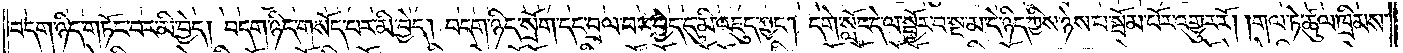བདག་ཉིད་གཏོང་བར་མི་བྱེད། བདག་ཉིད་གསོད་པར་མི་བྱེད། བདག་ཉིད་སྲོག་དང་བྲལ་བར་བྱེད་དུ་མི་འཇུད་ཀྱང༌། དགེ་སློང་དེ་ལ་སྦྱོར་བ་སྔ་མ་དེ་ཉིད་ཀྱིས་ཉེས་པ་སྦོམ་པོར་འགྱུར་རོ། །གལ་ཏེ་ཚུལ་ཁྲིམས་
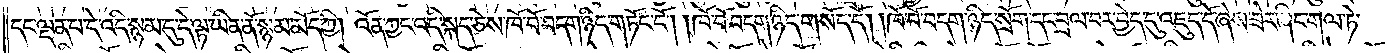དང་ལྡན་པ་དེ་འདི་སྙམ་དུ་དེ་ལྟ་ཡིན་ནོ་སྙམ་མོད་ཀྱི། འོན་ཀྱང་འདི་སྐད་ཅེས་ཁོ་བོ་བདག་ཉིད་གཏོང་ངོ༌། །ཁོ་བོ་བདག་ཉིད་གསོད་དོ། །ཁོ་བོ་བདག་ཉིད་སྲོག་དང་བྲལ་བར་བྱེད་དུ་འཇུད་དོ་ཞེས་ཟེར་ཞིང་གལ་ཏེ་
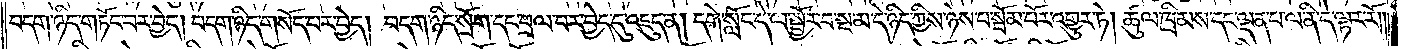བདག་ཉིད་གཏོང་བར་བྱེད། བདག་ཉིད་གསོད་པར་བྱེད། བདག་ཉིད་སྲོག་དང་བྲལ་བར་བྱེད་དུ་འཇུད་ན། དགེ་སློང་དེ་ལ་སྦྱོར་བ་སྔ་མ་དེ་ཉིད་ཀྱིས་ཉེས་པ་སྦོམ་པོར་འགྱུར་ཏེ། ཚུལ་ཁྲིམས་དང་ལྡན་པ་ལ་ནི་དེ་ལྟར་རོ༎
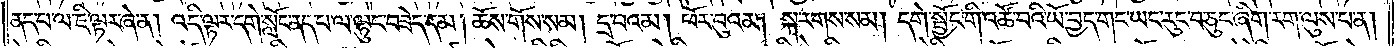ནད་པ་ལ་ཇི་ལྟར་ཞེ་ན། འདི་ལྟར་དགེ་སློང་ནད་པ་ལ་ལྷུང་བཟེད་དམ། ཆོས་གོས་སམ། དྲ་བའམ། ཕོར་བུའམ། སྐ་རགས་སམ། དགེ་སྦྱོང་གི་འཚོ་བའི་ཡོ་བྱད་གང་ཡང་རུང་བ་ཅུང་ཞིག་རག་ལུས་པ་ན།
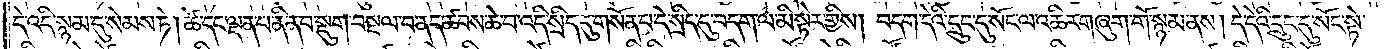དེ་འདི་སྙམ་དུ་སེམས་ཏེ། ཚེ་དང་ལྡན་པ་ནི་ན་བ་སྡུག་བསྔལ་བ་ནད་ཚབས་ཆེ་བ་འདི་སྲིད་དུ་གསོན་པ་དེ་སྲིད་དུ་བདག་ལ་མི་སྟེར་གྱིས། བདག་དེའི་དྲུང་དུ་སོང་ལ་འཆིར་གཞུག་གོ་སྙམ་ནས། དེ་དེའི་དྲུང་དུ་སོང་སྟེ་
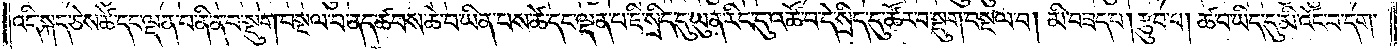འདི་སྐད་ཅེས་ཚེ་དང་ལྡན་པ་ནི་ན་བ་སྡུག་བསྔལ་བ་ནད་ཚབས་ཆེ་བ་ཡིན་པས་ཚེ་དང་ལྡན་པ་ཇི་སྲིད་དུ་ཡུན་རིང་དུ་འཚོ་བ་དེ་སྲིད་དུ་ཚོར་བ་སྡུག་བསྔལ་བ། མི་བཟད་པ། རྩུབ་པ། ཚ་བ་ཡིད་དུ་མི་འོང་བ་དག་
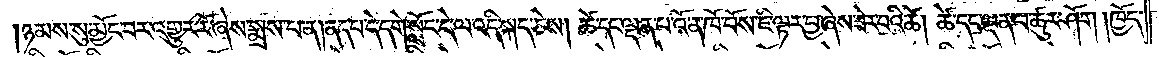།ཉམས་སུ་མྱོང་བར་འགྱུར་རོ་ཞེས་སྨྲས་པ་ན། ནད་པ་དེ་དགེ་སློང་དེ་ལ་འདི་སྐད་ཅེས། ཚེ་དང་ལྡན་པ་འོ་ན་ཁོ་བོས་ཇི་ལྟར་བྱ་ཞེས་ཟེར་བའི་ཚེ། ཚེ་དང་ལྡན་པ་ཚུར་ཤོག །ཁྱོད་
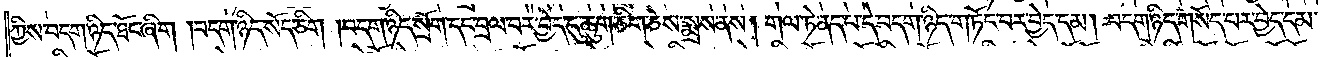ཀྱིས་བདག་ཉིད་ཐོང་ཞིག །བདག་ཉིད་སོད་ཅིག །བདག་ཉིད་སྲོག་དང་བྲལ་བར་བྱེད་དུ་ཆུག་ཅིག་ཅེས་སྨྲས་ནས། གལ་ཏེ་ནད་པ་དེ་བདག་ཉིད་གཏོང་བར་བྱེད་དམ། བདག་ཉིད་གསོད་པར་བྱེད་དམ་
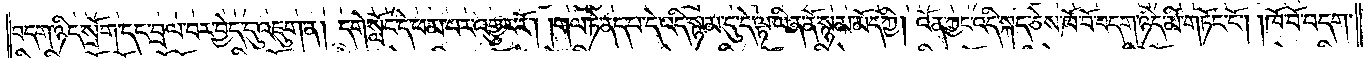བདག་ཉིད་སྲོག་དང་བྲལ་བར་བྱེད་དུ་འཇུག་ན། དགེ་སློང་དེ་ཕམ་པར་འགྱུར་རོ། །གལ་ཏེ་ནད་པ་དེ་འདི་སྙམ་དུ་དེ་ལྟ་ཡིན་ནོ་སྙམ་མོད་ཀྱི། འོན་ཀྱང་འདི་སྐད་ཅེས་ཁོ་བོ་བདག་ཉིད་མི་གཏོང་ངོ༌། །ཁོ་བོ་བདག་
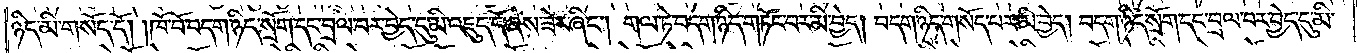ཉིད་མི་གསོད་དོ། །ཁོ་བོ་བདག་ཉིད་སྲོག་དང་བྲལ་བར་བྱེད་དུ་མི་འཇུད་དོ་ཞེས་ཟེར་ཞིང༌། གལ་ཏེ་བདག་ཉིད་གཏོང་བར་མི་བྱེད། བདག་ཉིད་གསོད་པར་མི་བྱེད། བདག་ཉིད་སྲོག་དང་བྲལ་བར་བྱེད་དུ་མི་
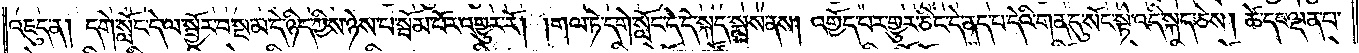འཇུད་ན། དགེ་སློང་དེ་ལ་སྦྱོར་བ་སྔ་མ་དེ་ཉིད་ཀྱིས་ཉེས་པ་སྦོམ་པོར་འགྱུར་རོ། །གལ་ཏེ་དགེ་སློང་དེ་དེ་སྐད་སྨྲས་ནས། འགྱོད་པར་གྱུར་ཅིང་དེ་ནད་པ་དེའི་གན་དུ་སོང་སྟེ་འདི་སྐད་ཅེས། ཚེ་དང་ལྡན་པ་
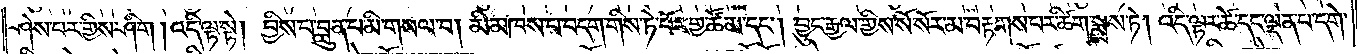ཤེས་པར་གྱིས་ཤིག །འདི་ལྟ་སྟེ། བྱིས་པ་བླུན་པ་མི་གསལ་བ། མི་མཁས་པ་བདག་གིས་ཏེ་བོར་གྱ་ཚོམ་དང༌། བྱུང་རྒྱལ་གྱིས་སོ་སོར་མ་བརྟགས་པར་ཚིག་སྨྲས་ཏེ། འདི་ལྟར་ཚེ་དང་ལྡན་པ་དགེ་
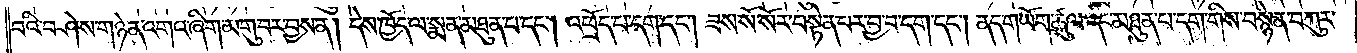བའི་བཤེས་གཉེན་འགའ་ཞིག་མགུ་བར་བྱས་ན། དེས་ཁྱོད་ལ་སྨན་མཐུན་པ་དང༌། འཕྲོད་པ་དག་དང༌། ཟས་སོ་སོར་བསྟེན་པར་བྱ་བ་དག་དང༌། ནད་གཡོག་ཚུལ་དང་མཐུན་པ་དག་གིས་བསྙེན་བཀུར་
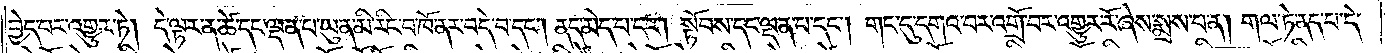བྱེད་པར་འགྱུར་ཏེ། དེ་ལྟར་ན་ཚེ་དང་ལྡན་པ་ཡུན་མི་རིང་བ་ཁོ་ནར་བདེ་བ་དང༌། ནད་མེད་པ་དང༌། སྟོབས་དང་ལྡན་པ་དང༌། གང་དུ་དགའ་བར་འགྲོ་བར་འགྱུར་རོ་ཞེས་སྨྲས་པ་ན། གལ་ཏེ་ནད་པ་དེ་
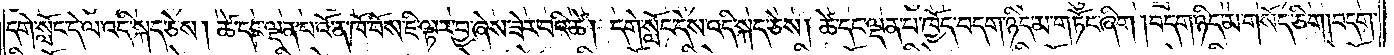དགེ་སློང་དེ་ལ་འདི་སྐད་ཅེས། ཚེ་དང་ལྡན་པ་འོ་ན་ཁོ་བོས་ཇི་ལྟར་བྱ་ཞེས་ཟེར་བའི་ཚེ། དགེ་སློང་དེས་འདི་སྐད་ཅེས། ཚེ་དང་ལྡན་པ་ཁྱོད་བདག་ཉིད་མ་གཏོང་ཞིག །བདག་ཉིད་མ་གསོད་ཅིག །བདག་
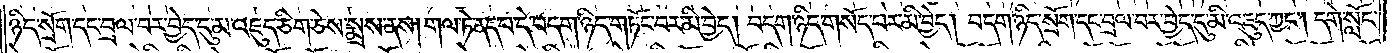ཉིད་སྲོག་དང་བྲལ་བར་བྱེད་དུ་མ་འཇུད་ཅིག་ཅེས་སྨྲས་ནས། གལ་ཏེ་ནད་པ་དེ་བདག་ཉིད་གཏོང་བར་མི་བྱེད། བདག་ཉིད་གསོད་པར་མི་བྱེད། བདག་ཉིད་སྲོག་དང་བྲལ་བར་བྱེད་དུ་མི་འཇུད་ཀྱང༌། དགེ་སློང་
